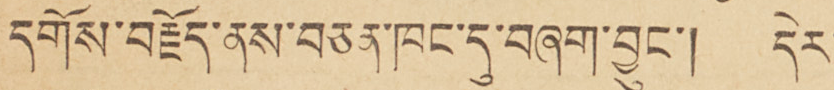དགོས་བརྗོད་ནས་བཅན་ཁང་དུ་བཞག་བྱུང་། དེར་
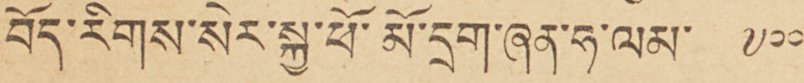བོད་རིགས་སེར་སྐྱ་ཕོ་མོ་དྲག་ཧ་ལམ་ ༧༠༠
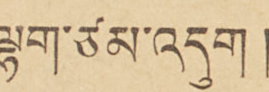ལྷག་ཙམ་འདུག །
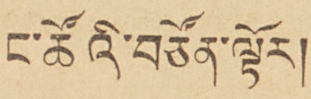ང་ཚོའི་བཙོན་ལྟོར།
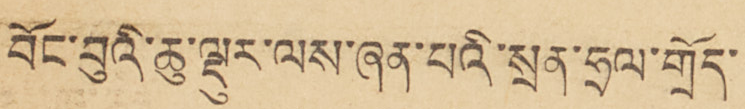བོང་བུའི་ཆུ་ལྡུར་ལས་ཞན་པའི་སྲན་ཧྲལ་གྲོད་
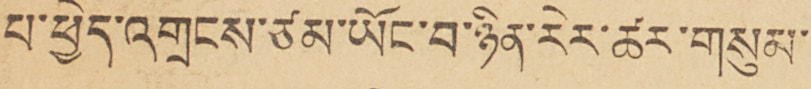པ་ཕྱེད་འགྲངས་ཙམ་ཡོང་བ་ཉིན་རེར་ཚར་གསུམ་
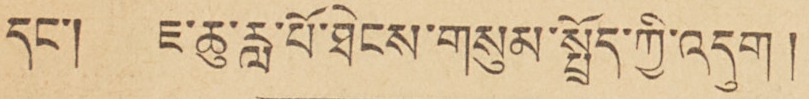དང་། ཇ་ཆུ་རླ་པོ་ཐེངས་གསུམ་སྤྲོད་ཀྱི་འདུག །
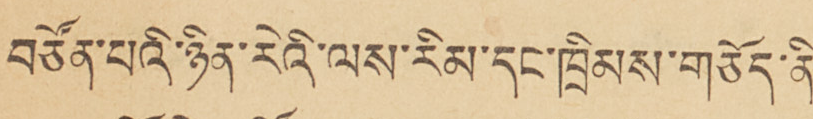བཙོན་པའི་ཉིན་རེའི་ལས་རིམ་དང་ཁྲིམས་གཅོད་ནི།
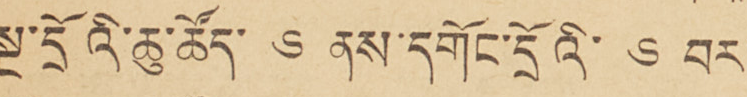སྔ་དྲོའི་ཆུ་ཚོད་ ༦ ནས་དགོང་དྲོའི་ ༦ བར་
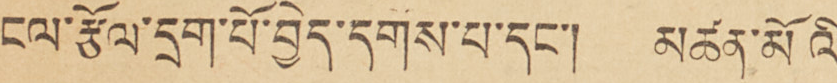ངལ་རྩོལ་དྲག་པོ་བྱེད་དགོས་པ་དང་། མཚན་མོའི་
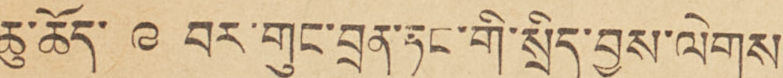ཆུ་ཚོད་ ༩ བར་གུང་བྲན་ཏང་གི་སྲིད་བྱུས་ལེགས་
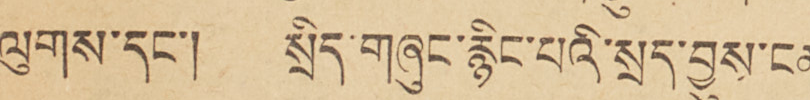ལུགས་དང་། སྲོད་གཞུང་རྙིང་པའི་སྲད་བྱུས་ངན་
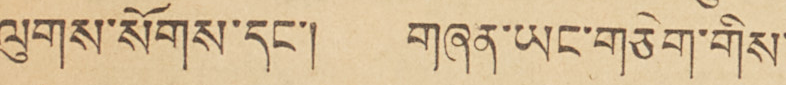ལུགས་སོགས་དང་། གཞན་ཡང་གཅིག་གིས་
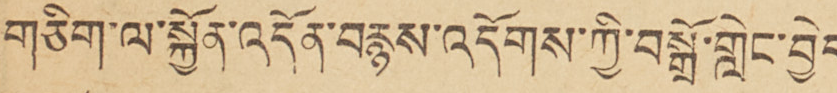གཅིག་ལ་སྐྱོན་འདོན་བརྙས་འདོགས་ཀྱི་བསྒྲོ་གླེང་བྱེད་
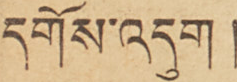དགོས་འདུག །
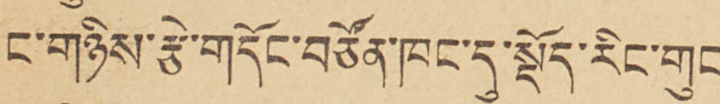ང་གཉིས་རྩེ་གདོང་བཙོན་ཁང་དུ་སྡོད་རིང་གུང་
